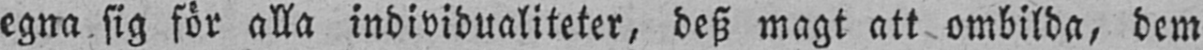egna sig för alla individualiteter, desz magt att ombilda, dem
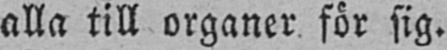alla till organer för sig.
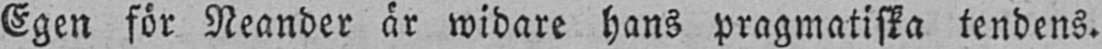Egen för Neander är widare hans pragmatiska tendens.
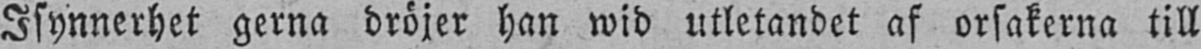Isynnerhet gerna dröjer han wid utletandet af orsakerna till
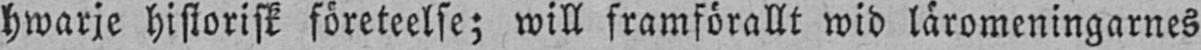hwarje historisk företeelse; will framförallt wid läromeningarnes
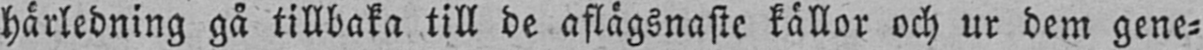härledning gå tillbaka till de aflägsnaste källor och ur dem gene-
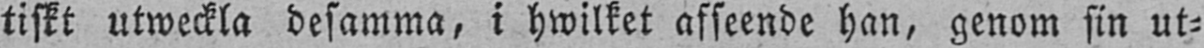tiskt utweckla desamma, i hwilket afseende han, genom sin ut-
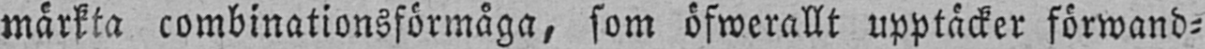märkta combinationsförmåga, som öfwerallt upptäcker förwand-
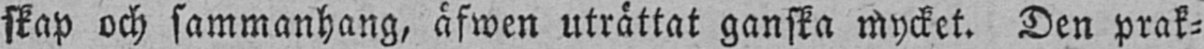skap och sammanhang, äfwen uträttat ganska mycket. Den prak-
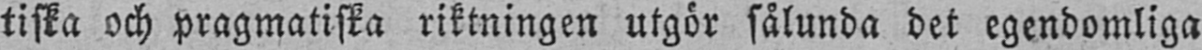tiska och pragmatiska riktningen utgör sålunda det egendomliga
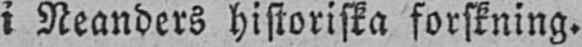i Neanders historiska forskning.
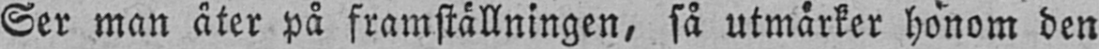Ser man åter på framställningen, så utmärker honom den
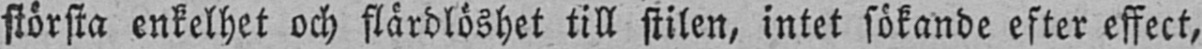största enkelhet och flärdlöshet till stilen, intet sökande efter effect,
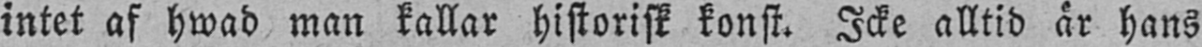intet af hwad man kallar historisk konst. Icke alltid är hans
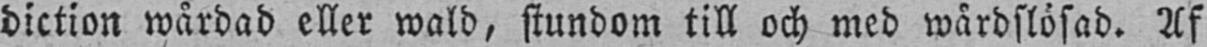diction wårdad eller wald, stundom till och med wårdslösad. Af
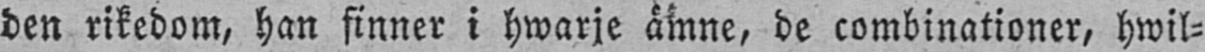den rikedom, han finner i hwarje ämne, de combinationer, hwil-
